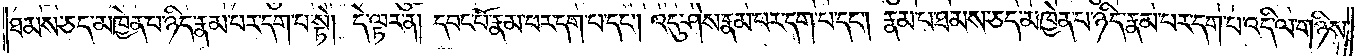ཐམས་ཅད་མཁྱེན་པ་ཉིད་རྣམ་པར་དག་པ་སྟེ། དེ་ལྟར་ན། དབང་པོ་རྣམ་པར་དག་པ་དང༌། འདུ་ཤེས་རྣམ་པར་དག་པ་དང༌། རྣམ་པ་ཐམས་ཅད་མཁྱེན་པ་ཉིད་རྣམ་པར་དག་པ་འདི་ལ་གཉིས་
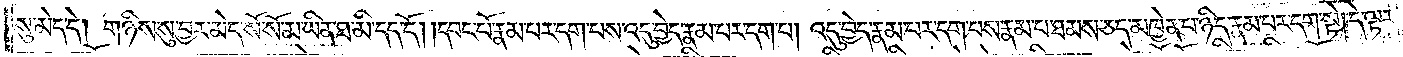སུ་མེད་དེ། གཉིས་སུ་བྱར་མེད་སོ་སོ་མ་ཡིན་ཐ་མི་དད་དོ། ། དབང་པོ་རྣམ་པར་དག་པས་འདུ་བྱེད་རྣམ་པར་དག་པ། འདུ་བྱེད་རྣམ་པར་དག་པས་རྣམ་པ་ཐམས་ཅད་མཁྱེན་པ་ཉིད་རྣམ་པར་དག་སྟེ། དེ་ལྟར་
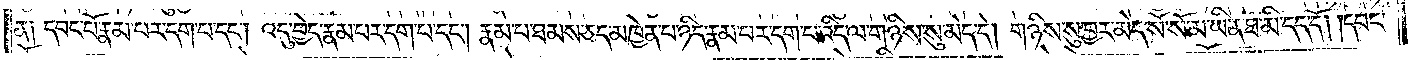ན༑ དབང་པོ་རྣམ་པར་དག་པ་དང༌། འདུ་བྱེད་རྣམ་པར་དག་པ་དང༌། རྣམ་པ་ཐམས་ཅད་མཁྱེན་པ་ཉིད་རྣམ་པར་དག་པ་འདི་ལ་གཉིས་སུ་མེད་དེ། གཉིས་སུ་བྱར་མེད་སོ་སོ་མ་ཡིན་ཐ་མི་དད་དོ། །དབང་
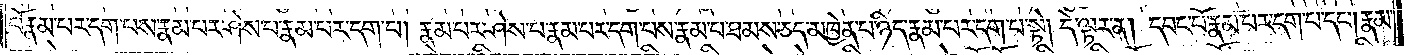པོ་རྣམ་པར་དག་པས་རྣམ་པར་ཤེས་པ་རྣམ་པར་དག་པ། རྣམ་པར་ཤེས་པ་རྣམ་པར་དག་པས་རྣམ་པ་ཐམས་ཅད་མཁྱེན་པ་ཉིད་རྣམ་པར་དག་པ་སྟེ། དེ་ལྟར་ན། དབང་པོ་རྣམ་པར་དག་པ་དང༌། རྣམ་
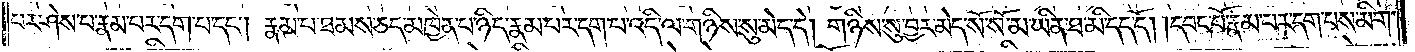པར་ཤེས་པ་རྣམ་པར་དག་པ་དང༌། རྣམ་པ་ཐམས་ཅད་མཁྱེན་པ་ཉིད་རྣམ་པར་དག་པ་འདི་ལ་གཉིས་སུ་མེད་དེ། གཉིས་སུ་བྱར་མེད་སོ་སོ་མ་ཡིན་ཐ་མི་དད་དོ། །དབང་པོ་རྣམ་པར་དག་པས་མིག་
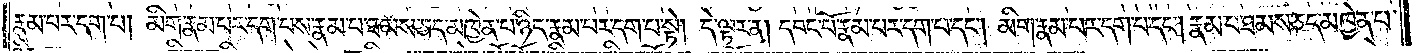རྣམ་པར་དག་པ། མིག་རྣམ་པར་དག་པས་རྣམ་པ་ཐམས་ཅད་མཁྱེན་པ་ཉིད་རྣམ་པར་དག་པ་སྟེ། དེ་ལྟར་ན། དབང་པོ་རྣམ་པར་དག་པ་དང༌། མིག་རྣམ་པར་དག་པ་དང༌། རྣམ་པ་ཐམས་ཅད་མཁྱེན་པ་
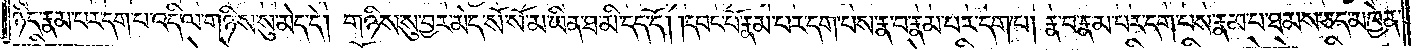ཉིད་རྣམ་པར་དག་པ་འདི་ལ་གཉིས་སུ་མེད་དེ། གཉིས་སུ་བྱར་མེད་སོ་སོ་མ་ཡིན་ཐ་མི་དད་དོ། །དབང་པོ་རྣམ་པར་དག་པས་རྣ་བ་རྣམ་པར་དག་པ། རྣ་བ་རྣམ་པར་དག་པས་རྣམ་པ་ཐམས་ཅད་མཁྱེན་
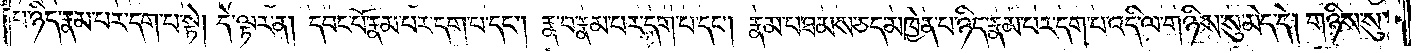པ་ཉིད་རྣམ་པར་དག་པ་སྟེ། དེ་ལྟར་ན། དབང་པོ་རྣམ་པར་དག་པ་དང༌། རྣ་བ་རྣམ་པར་དག་པ་དང༌། རྣམ་པ་ཐམས་ཅད་མཁྱེན་པ་ཉིད་རྣམ་པར་དག་པ་འདི་ལ་གཉིས་སུ་མེད་དེ། གཉིས་སུ་
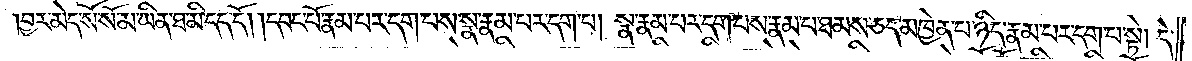བྱར་མེད་སོ་སོ་མ་ཡིན་ཐ་མི་དད་དོ། །དབང་པོ་རྣམ་པར་དག་པས་སྣ་རྣམ་པར་དག་པ། སྣ་རྣམ་པར་དག་པས་རྣམ་པ་ཐམས་ཅད་མཁྱེན་པ་ཉིད་རྣམ་པར་དག་པ་སྟེ། དེ་
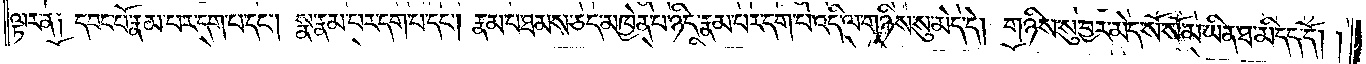ལྟར་ན༑ དབང་པོ་རྣམ་པར་དག་པ་དང༌། སྣ་རྣམ་པར་དག་པ་དང༌། རྣམ་པ་ཐམས་ཅད་མཁྱེན་པ་ཉིད་རྣམ་པར་དག་པ་འདི་ལ་གཉིས་སུ་མེད་དེ། གཉིས་སུ་བྱར་མེད་སོ་སོ་མ་ཡིན་ཐ་མི་དད་དོ། །
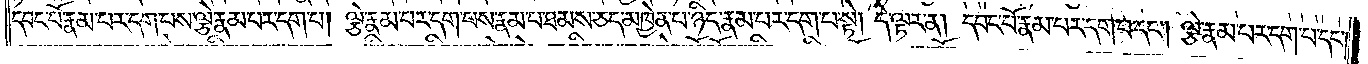དབང་པོ་རྣམ་པར་དག་པས་ལྕེ་རྣམ་པར་དག་པ། ལྕེ་རྣམ་པར་དག་པས་རྣམ་པ་ཐམས་ཅད་མཁྱེན་པ་ཉིད་རྣམ་པར་དག་པ་སྟེ། དེ་ལྟར་ན། དབང་པོ་རྣམ་པར་དག་པ་དང༌། ལྕེ་རྣམ་པར་དག་པ་དང༌།
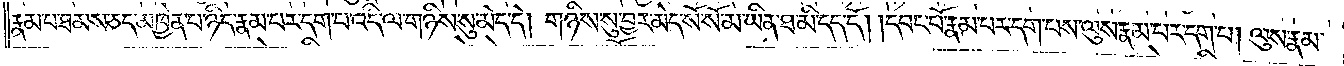རྣམ་པ་ཐམས་ཅད་མཁྱེན་པ་ཉིད་རྣམ་པར་དག་པ་འདི་ལ་གཉིས་སུ་མེད་དེ། གཉིས་སུ་བྱར་མེད་སོ་སོ་མ་ཡིན་ཐ་མི་དད་དོ། །དབང་པོ་རྣམ་པར་དག་པས་ལུས་རྣམ་པར་དག་པ། ལུས་རྣམ་
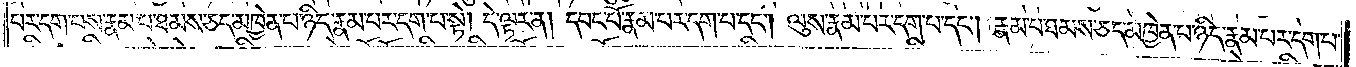པར་དག་པས་རྣམ་པ་ཐམས་ཅད་མཁྱེན་པ་ཉིད་རྣམ་པར་དག་པ་སྟེ། དེ་ལྟར་ན། དབང་པོ་རྣམ་པར་དག་པ་དང༌། ལུས་རྣམ་པར་དག་པ་དང༌། རྣམ་པ་ཐམས་ཅད་མཁྱེན་པ་ཉིད་རྣམ་པར་དག་པ་
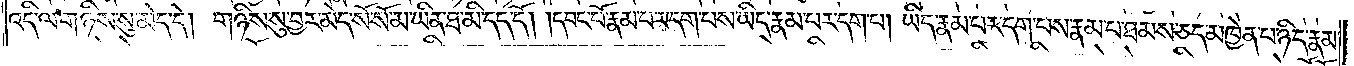འདི་ལ་གཉིས་སུ་མེད་དེ། གཉིས་སུ་བྱར་མེད་སོ་སོ་མ་ཡིན་ཐ་མི་དད་དོ། །དབང་པོ་རྣམ་པར་དག་པས་ཡིད་རྣམ་པར་དག་པ། ཡིད་རྣམ་པར་དག་པས་རྣམ་པ་ཐམས་ཅད་མཁྱེན་པ་ཉིད་རྣམ་
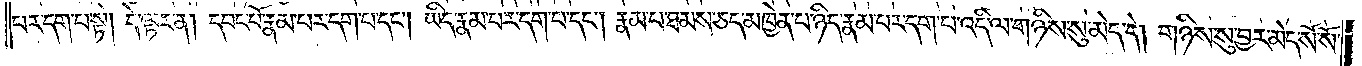པར་དག་པ་སྟེ། དེ་ལྟར་ན། དབང་པོ་རྣམ་པར་དག་པ་དང༌། ཡིད་རྣམ་པར་དག་པ་དང༌། རྣམ་པ་ཐམས་ཅད་མཁྱེན་པ་ཉིད་རྣམ་པར་དག་པ་འདི་ལ་གཉིས་སུ་མེད་དེ། གཉིས་སུ་བྱར་མེད་སོ་སོ་
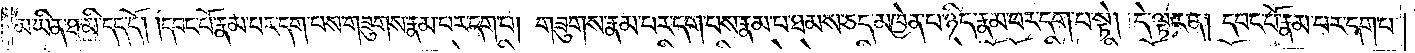མ་ཡིན་ཐ་མི་དད་དོ། །དབང་པོ་རྣམ་པར་དག་པས་གཟུགས་རྣམ་པར་དག་པ། གཟུགས་རྣམ་པར་དག་པས་རྣམ་པ་ཐམས་ཅད་མཁྱེན་པ་ཉིད་རྣམ་པར་དག་པ་སྟེ། དེ་ལྟར་ན། དབང་པོ་རྣམ་པར་དག་པ་
